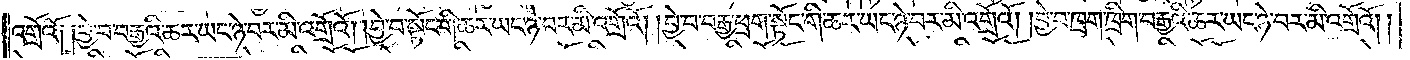འགྲོའོ༑ ༑བྱེ་བ་བརྒྱའི་ཆར་ཡང་ཉེ་བར་མི་འགྲོའོ། །བྱེ་བ་སྟོང་གི་ཆར་ཡང་ཉེ་བར་མི་འགྲོའོ། །བྱེ་བ་བརྒྱ་ཕྲག་སྟོང་གི་ཆར་ཡང་ཉེ་བར་མི་འགྲོའོ། །བྱེ་བ་ཁྲག་ཁྲིག་བརྒྱའི་ཆར་ཡང་ཉེ་བར་མི་འགྲོའོ། །
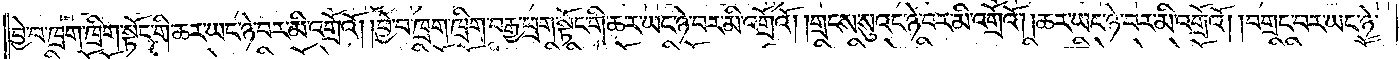བྱེ་བ་ཁྲག་ཁྲིག་སྟོང་གི་ཆར་ཡང་ཉེ་བར་མི་འགྲོའོ། །བྱེ་བ་ཁྲག་ཁྲིག་བརྒྱ་ཕྲག་སྟོང་གི་ཆར་ཡང་ཉེ་བར་མི་འགྲོའོ། །གྲངས་སུའང་ཉེ་བར་མི་འགྲོའོ། །ཆར་ཡང་ཉེ་བར་མི་འགྲོའོ། །བགྲང་བར་ཡང་ཉེ་
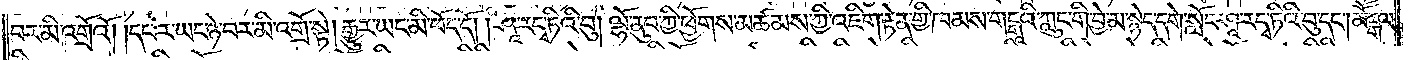བར་མི་འགྲོའོ། །དཔེར་ཡང་ཉེ་བར་མི་འགྲོ་སྟེ། རྒྱུར་ཡང་མི་ཕོད་དོ། །ཤཱ་རདྭ་ཏིའི་བུ། ལྷོ་ནུབ་ཀྱི་ཕྱོགས་མཚམས་ཀྱི་འཇིག་རྟེན་གྱི་ཁམས་གངྒཱའི་ཀླུང་གི་བྱེ་མ་སྙེད་དགེ་སློང་ཤཱ་ར་དྭ་ཏིའི་བུ་དང༌། མཽདྒལ་
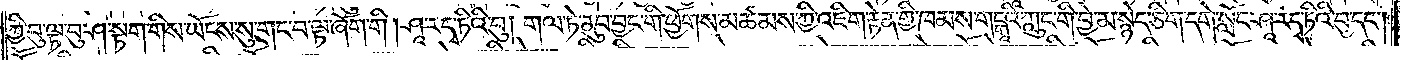གྱི་བུ་ལྟ་བུ་ཤ་སྟག་གིས་ཡོངས་སུ་གང་བ་ལྟ་ཞོག་གི། ཤཱ་ར་དྭ་ཏིའི་བུ། གལ་ཏེ་ནུབ་བྱང་གི་ཕྱོགས་མཚམས་ཀྱི་འཇིག་རྟེན་གྱི་ཁམས་གངྒཱའི་ཀླུང་གི་བྱེ་མ་སྙེད་ཅིག་དགེ་སློང་ཤཱ་རདྭ་ཏིའི་བུ་དང༌།
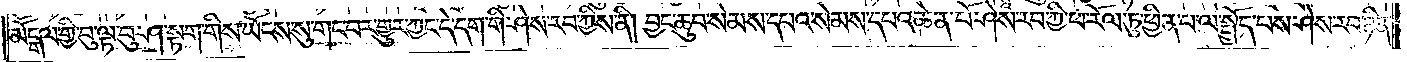མཽདྒལ་གྱི་བུ་ལྟ་བུ་ཤ་སྟག་གིས་ཡོངས་སུ་གང་བར་གྱུར་ཀྱང་དེ་དག་གི་ཤེས་རབ་ཀྱིས་ནི། བྱང་ཆུབ་སེམས་དཔའ་སེམས་དཔའ་ཆེན་པོ་ཤེས་རབ་ཀྱི་ཕ་རོལ་ཏུ་ཕྱིན་པ་ལ་སྤྱོད་པས་ཤེས་རབ་ཉིན་
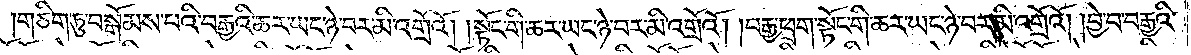གཅིག་ཏུ་བསྒོམས་པའི་བརྒྱའི་ཆར་ཡང་ཉེ་བར་མི་འགྲོའོ། །སྟོང་གི་ཆར་ཡང་ཉེ་བར་མི་འགྲོའོ། །བརྒྱ་ཕྲག་སྟོང་གི་ཆར་ཡང་ཉེ་བར་མི་འགྲོའོ། །བྱེ་བ་བརྒྱའི་
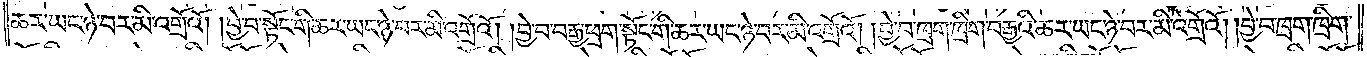ཆར་ཡང་ཉེ་བར་མི་འགྲོའོ། །བྱེ་བ་སྟོང་གི་ཆར་ཡང་ཉེ་བར་མི་འགྲོའོ། །བྱེ་བ་བརྒྱ་ཕྲག་སྟོང་གི་ཆར་ཡང་ཉེ་བར་མི་འགྲོའོ། །བྱེ་བ་ཁྲག་ཁྲིག་བརྒྱའི་ཆར་ཡང་ཉེ་བར་མི་འགྲོའོ། །བྱེ་བ་ཁྲག་ཁྲིག་
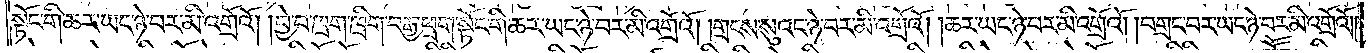སྟོང་གི་ཆར་ཡང་ཉེ་བར་མི་འགྲོའོ། །བྱེ་བ་ཁྲག་ཁྲིག་བརྒྱ་ཕྲག་སྟོང་གི་ཆར་ཡང་ཉེ་བར་མི་འགྲོའོ། །གྲངས་སུའང་ཉེ་བར་མི་འགྲོའོ། །ཆར་ཡང་ཉེ་བར་མི་འགྲོའོ། །བགྲང་བར་ཡང་ཉེ་བར་མི་འགྲོའོ༎
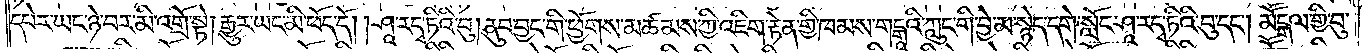དཔེར་ཡང་ཉེ་བར་མི་འགྲོ་སྟེ། རྒྱུར་ཡང་མི་ཕོད་དོ། །ཤཱ་ར་དྭ་ཏིའི་བུ། ནུབ་བྱང་གི་ཕྱོགས་མཚམས་ཀྱི་འཇིག་རྟེན་གྱི་ཁམས་གངྒཱའི་ཀླུང་གི་བྱེ་མ་སྙེད་དགེ་སློང་ཤཱ་ར་དྭ་ཏིའི་བུ་དང༌། མཽདྒལ་གྱི་བུ་
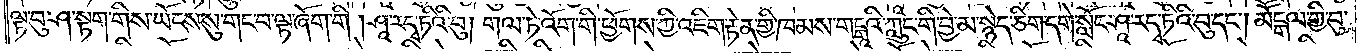ལྟ་བུ་ཤ་སྟག་གིས་ཡོངས་སུ་གང་བ་ལྟ་ཞོག་གི །ཤཱ་ར་དྭ་ཏིའི་བུ། གལ་ཏེ་འོག་གི་ཕྱོགས་ཀྱི་འཇིག་རྟེན་གྱི་ཁམས་གངྒཱའི་ཀླུང་གི་བྱེ་མ་སྙེད་ཅིག་དགེ་སློང་ཤཱ་ར་དྭ་ཏིའི་བུ་དང༌། མཽདྒལ་གྱི་བུ་
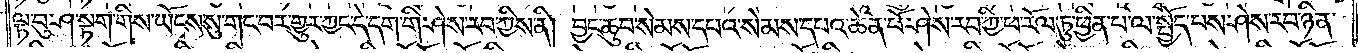ལྟ་བུ་ཤ་སྟག་གིས་ཡོངས་སུ་གང་བར་གྱུར་ཀྱང་དེ་དག་གི་ཤེས་རབ་ཀྱིས་ནི། བྱང་ཆུབ་སེམས་དཔའ་སེམས་དཔའ་ཆེན་པོ་ཤེས་རབ་ཀྱི་ཕ་རོལ་ཏུ་ཕྱིན་པ་ལ་སྤྱོད་པས་ཤེས་རབ་ཉིན་
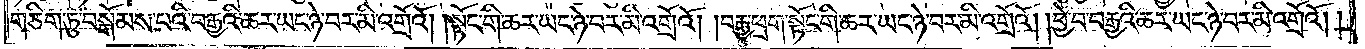གཅིག་ཏུ་བསྒོམས་པའི་བརྒྱའི་ཆར་ཡང་ཉེ་བར་མི་འགྲོའོ། །སྟོང་གི་ཆར་ཡང་ཉེ་བར་མི་འགྲོའོ། །བརྒྱ་ཕྲག་སྟོང་གི་ཆར་ཡང་ཉེ་བར་མི་འགྲོའོ། །བྱེ་བ་བརྒྱའི་ཆར་ཡང་ཉེ་བར་མི་འགྲོའོ། །
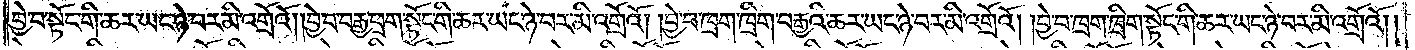བྱེ་བ་སྟོང་གི་ཆར་ཡང་ཉེ་བར་མི་འགྲོའོ། །བྱེ་བ་བརྒྱ་ཕྲག་སྟོང་གི་ཆར་ཡང་ཉེ་བར་མི་འགྲོའོ། །བྱེ་བ་ཁྲག་ཁྲིག་བརྒྱའི་ཆར་ཡང་ཉེ་བར་མི་འགྲོའོ། །བྱེ་བ་ཁྲག་ཁྲིག་སྟོང་གི་ཆར་ཡང་ཉེ་བར་མི་འགྲོའོ༎
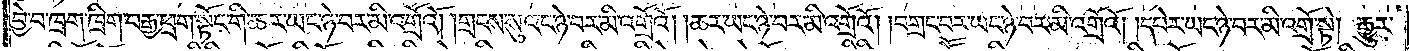བྱེ་བ་ཁྲག་ཁྲིག་བརྒྱ་ཕྲག་སྟོང་གི་ཆར་ཡང་ཉེ་བར་མི་འགྲོའོ། །གྲངས་སུའང་ཉེ་བར་མི་འགྲོའོ། །ཆར་ཡང་ཉེ་བར་མི་འགྲོའོ། །བགྲང་བར་ཡང་ཉེ་བར་མི་འགྲོའོ། །དཔེར་ཡང་ཉེ་བར་མི་འགྲོ་སྟེ། རྒྱུར་
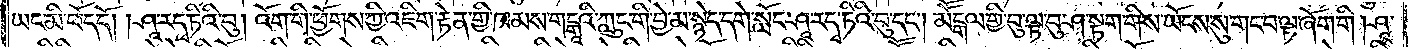ཡང་མི་ཕོད་དོ། །ཤཱ་ར་དྭ་ཏིའི་བུ། འོག་གི་ཕྱོགས་ཀྱི་འཇིག་རྟེན་གྱི་ཁམས་གངྒཱའི་ཀླུང་གི་བྱེ་མ་སྙེད་དགེ་སློང་ཤཱ་ར་དྭ་ཏིའི་བུ་དང༌། མཽདྒལ་གྱི་བུ་ལྟ་བུ་ཤ་སྟག་གིས་ཡོངས་སུ་གང་བ་ལྟ་ཞོག་གི །ཤཱ་
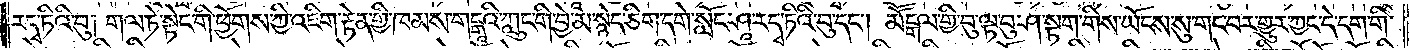ར་དྭ་ཏིའི་བུ། གལ་ཏེ་སྟེང་གི་ཕྱོགས་ཀྱི་འཇིག་རྟེན་གྱི་ཁམས་གངྒཱའི་ཀླུང་གི་བྱེ་མ་སྙེད་ཅིག་དགེ་སློང་ཤཱ་ར་དྭ་ཏིའི་བུ་དང༌། མཽདྒལ་གྱི་བུ་ལྟ་བུ་ཤ་སྟག་གིས་ཡོངས་སུ་གང་བར་གྱུར་ཀྱང་དེ་དག་གི་
